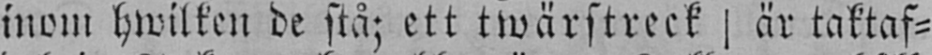inom hwilken de stå; ett twärstreck | är taktaf-
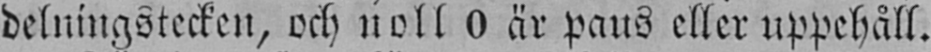delningstecken, och noll 0 är paus eller uppehåll.
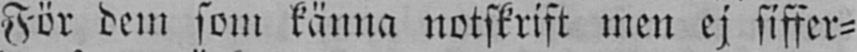För dem som känna notskrift men ej siffer-
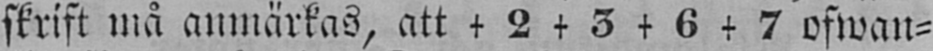skrift må anmärkas, att + 2 + 3 + 6 + 7 ofwan-
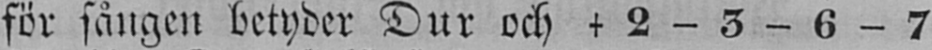för sången betyder Dur och + 2 - 3 - 6 - 7
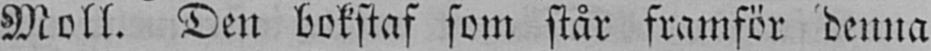Moll. Den bokstaf som står framför denna
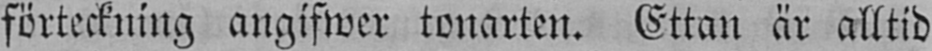förteckning angifwer tonarten. Ettan är alltid
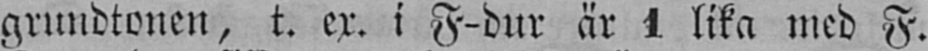grundtonen, t. ex. i F-dur är 1 lika med F.
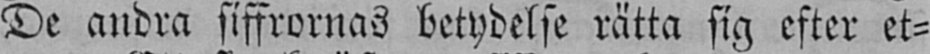De andra siffrornas betydelse rätta sig efter et-
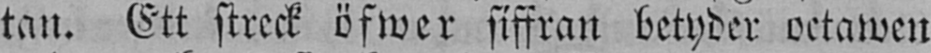tan. Ett streck öfwer siffran betyder octawen
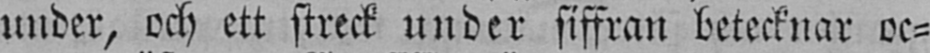under, och ett streck under siffran betecknar oc-
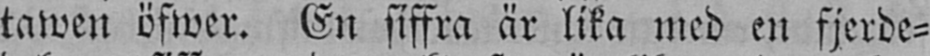tawen öfwer. En siffra är lika med en fjerde-
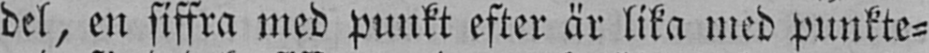del, en siffra med punkt efter är lika med punkte-
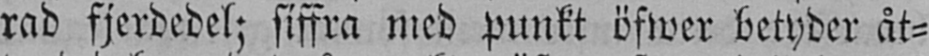rad fjerdedel; siffra med punkt öfwer betyder åt-
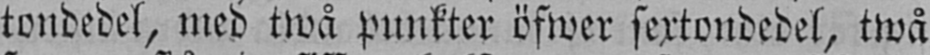tondedel, med twå punkter öfwer sextondedel, twå
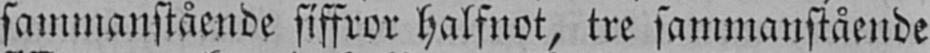sammanstående siffror halfnot, tre sammanstående
